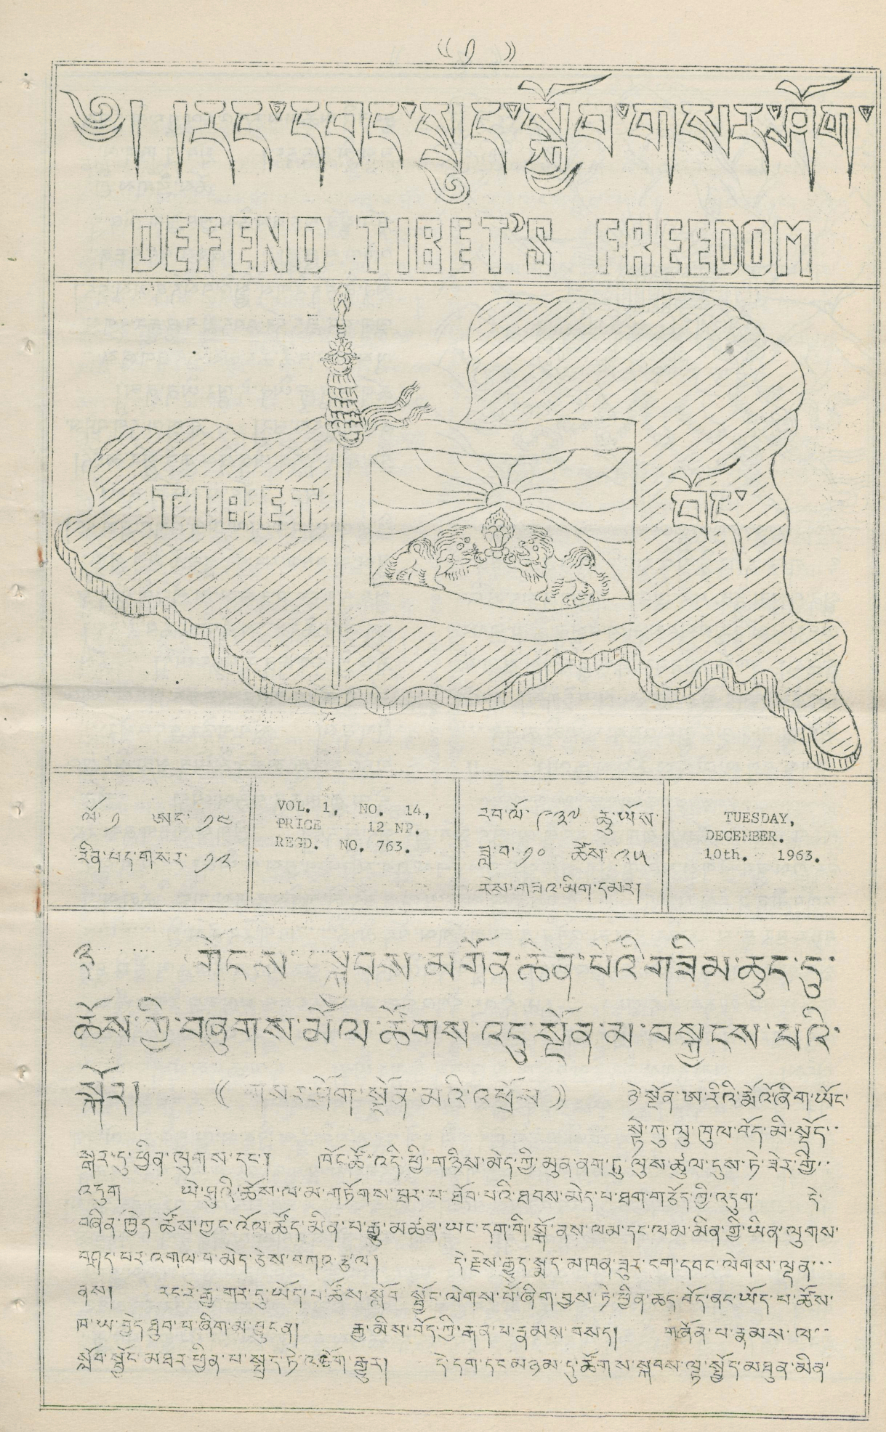(( 2 ))
༄༅། །རང་དབང་སྲུང་སྐྱོབ་གསར་ཤོག་
DEFEND TIBET'S FREEDOM
TIBET
བོད་
ལ་ ༡ ཨང་ ༡༠
རིན་པད་གསར་ ༡༢
VOL. 1. No. 14
IN
REGD. NO. 763
རབ་ལོ་ ༩༣༧ ཆུ་ཡོས་
ཟླ་བ་ ༡༠ ཚེས་ ༢༥
རེས་གཟའ་མིག་ལ།།
TUESDAY,
DECEMBER.
10th. 1963.
༈ གོང་ས་ སྐྱབས་མགོན་ཆེན་པོའི་གཟིམ་ཆུད་དུ་
ཆོས་ཀྱི་བཞུགས་མོལ་ཚོགས་འདུ་སྔོན་མ་བསྐྱངས་པའི་
སྐོར།
(( གསར་ཤོག་སྔོན་མའི་འཕྲོས ))
ཉེ་སྔོན་ཨ་རིའི་རྨོའོ་ཞིག་ཡོང་
སྟེ་ཀུ་ལུ་ཁུལ་བོད་མི་སྡོད་་
སྒར་དུ་ཕྱིན་ལུགས་དང་། ཁོང་ཚོ་འདི་ཕྱི་གཉིས་མེད་ཀྱི་མུན་ནག་ཏུ་ལུས་ཚུལ་དུས་ཏེ་ཟེར་གྱི་་་
འདུག ཡེ་ཤུའི་ཆོས་ལ་མ་གཏོགས་ཐར་པ་ཐོབ་པའི་ཐབས་མེད་པ་ཐག་གཅོད་ཀྱི་འདུག དེ་
བཞིན་ཁྱེད་ཚོས་ཀྱང་འོལ་ཚོད་མིན་པ་རྒྱུ་མཚན་ཡང་དག་གི་སྒོ་ནས་ལམ་དང་ལམ་མིན་གྱི་ཡིན་ལུགས་
བཤད་པར་འགལ་བ་མེད་ཅེས་བཀའ་རྩལ། དེ་རྫས་རྒྱུད་སྨད་མཁན་ཟུར་དག་དབང་ལེགས་ལྡན་་་
ནས། རང་རེ་རྒྱ་གར་དུ་ཡོད་པ་ཚོས་སློབ་སྦྱོང་ལེགས་པོ་ཞིག་བྱས་ཏེ་ཕྱིན་ཆད་བོད་ནང་ཡོད་པ་ཚོས་
ཁ་ཡ་བྱེད་ཐུབ་པ་ཞིག་མ་བྱུང་ན། རྒྱ་མིས་བོད་ཀྱི་རྒན་པ་རྣམས་བསད། གཞོན་པ་རྣམས་ལ་་
སློབ་སྦྱོང་མཐར་ཕྱིན་པ་སྤྲད་ཏེ་འཇོག་རྒྱུར། དེ་དག་དང་མཉམ་དུ་ཚོགས་སྐབས་ལྟ་སྤྱོད་མཐུན་མིན་
